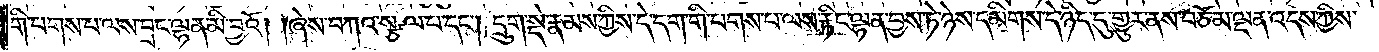གི་པགས་པ་ལས་བྲང་ལྷན་མི་བྱའོ། །ཞེས་བཀའ་སྩལ་པ་དང༌། དྲུག་སྡེ་རྣམས་ཀྱིས་དེ་དག་གི་པགས་པ་ལས་རྟིང་ལྷན་བྱས་ཏེ་ཉེས་དམིགས་དེ་ཉིད་དུ་གྱུར་ནས་བཅོམ་ལྡན་འདས་ཀྱིས་
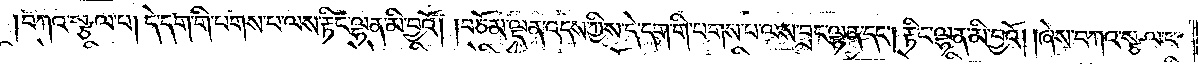བཀའ་སྩལ་པ། དེ་དག་གི་པགས་པ་ལས་རྟིང་ལྷན་མི་བྱའོ། །བཅོམ་ལྡན་འདས་ཀྱིས་དེ་དག་གི་པགས་པ་ལས་བྲང་ལྷན་དང༌། རྟིང་ལྷན་མི་བྱའོ། །ཞེས་བཀའ་སྩལ་པ་
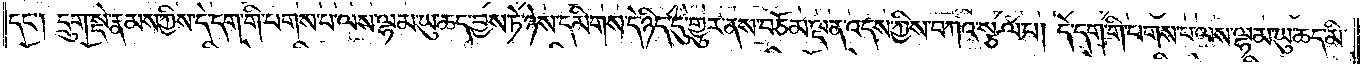དང༌། དྲུག་སྡེ་རྣམས་ཀྱིས་དེ་དག་གི་པགས་པ་ལས་ལྷམ་ཡུ་ཆད་བྱས་ཏེ་ཉེས་དམིགས་དེ་ཉིད་དུ་གྱུར་ནས་བཅོམ་ལྡན་འདས་ཀྱིས་བཀའ་སྩལ་པ། དེ་དག་གི་པགས་པ་ལས་ལྷམ་ཡུ་ཆད་མི་
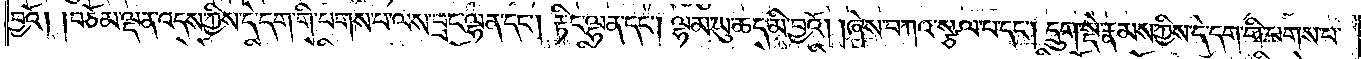བྱའོ། །བཅོམ་ལྡན་འདས་ཀྱིས་དེ་དག་གི་པགས་པ་ལས་བྲང་ལྷན་དང༌། རྟིང་ལྷན་དང༌། ལྷམ་ཡུ་ཆད་མི་བྱའོ། །ཞེས་བཀའ་སྩལ་པ་དང༌། དྲུག་སྡེ་རྣམས་ཀྱིས་དེ་དག་གི་པགས་པ་
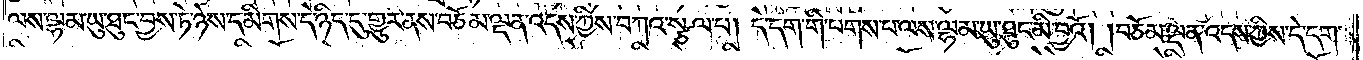ལས་ལྷམ་ཡུ་ཐུང་བྱས་ཏེ་ཉེས་དམིགས་དེ་ཉིད་དུ་གྱུར་ནས་བཅོམ་ལྡན་འདས་ཀྱིས་བཀའ་སྩལ་པ། དེ་དག་གི་པགས་པ་ལས་ལྷམ་ཡུ་ཐུང་མི་བྱའོ། །བཅོམ་ལྡན་འདས་ཀྱིས་དེ་དག་
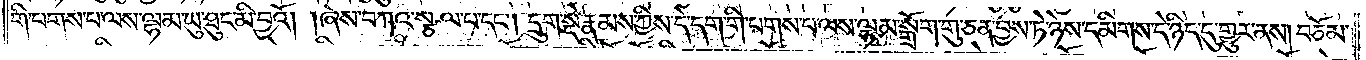གི་པགས་པ་ལས་ལྷམ་ཡུ་ཐུང་མི་བྱའོ། །ཞེས་བཀའ་སྩལ་པ་དང༌། དྲུག་སྡེ་རྣམས་ཀྱིས་དེ་དག་གི་པགས་པ་ལས་ལྷམ་སྒྲོག་གུ་ཅན་བྱས་ཏེ་ཉེས་དམིགས་དེ་ཉིད་དུ་གྱུར་ནས། བཅོམ་
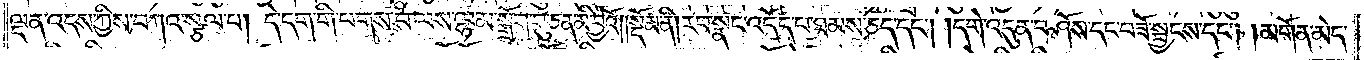ལྡན་འདས་ཀྱིས་བཀའ་སྩལ་པ། དེ་དག་གི་པགས་པ་ལས་ལྷམ་སྒྲོག་གུ་ཅན་མི་བྱའོ།    །སྡོམ་ནི། རབ་སྣང་འདོད་པ་ཐམས་ཅད་དང༌། །དགེ་འདུན་བཤོས་དང་བཟོ་སྦྱངས་དང༌། །མགོན་མེད་
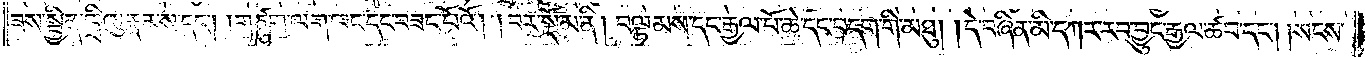ཟས་སྦྱིན་ཁྲིའུ་རྣམས་དང༌། །གཙུག་ལག་ཁང་དང་བཟང་པོའོ། །བར་སྡོམ་ནི། བལྟམས་དང་རྒྱལ་པོ་ཆེ་དང་བདག་གི་མཐུ། །དེ་བཞིན་མི་དཀར་རབ་བྱུང་རྒྱལ་ཚབ་དང༌། །སངས་
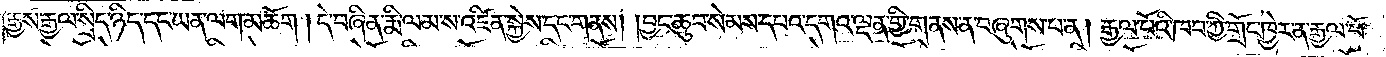རྒྱས་རྒྱལ་སྲིད་ཉིད་དང་ཡན་ལག་མཆོག །དེ་བཞིན་རྨི་ལམ་ས་འཛིན་སྐྱེས་དང་གནས། །བྱང་ཆུབ་སེམས་དཔའ་དགའ་ལྡན་གྱི་གནས་ན་བཞུགས་པ་ན། རྒྱལ་པོའི་ཁབ་ཀྱི་གྲོང་ཁྱེར་ན་རྒྱལ་པོ་
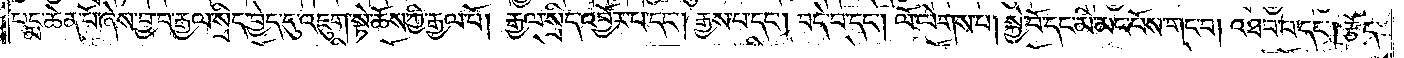པདྨ་ཆེན་པོ་ཞེས་བྱ་བ་རྒྱལ་སྲིད་བྱེད་དུ་འཇུག་སྟེ་ཆོས་ཀྱི་རྒྱལ་པོ། རྒྱལ་སྲིད་འབྱོར་པ་དང༌། རྒྱས་པ་དང༌། བདེ་བ་དང༌། ལོ་ལེགས་པ། སྐྱེ་བོ་དང་མི་མང་པོས་གང་བ། འཐབ་པ་དང༌། རྩོད་
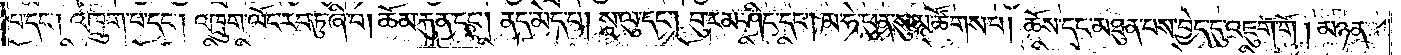པ་དང༌། འཁྲུག་པ་དང༌། འཁྲུག་ལོང་རབ་ཏུ་ཞི་བ། ཆོམ་རྐུན་དང༌། ནད་མེད་པ། སཱ་ལུ་དང༌། བུ་རམ་ཤིང་དང༌། མ་ཧེ་ཕུན་སུམ་ཚོགས་པ། ཆོས་དང་མཐུན་པས་བྱེད་དུ་འཇུག་གོ །མཉན་
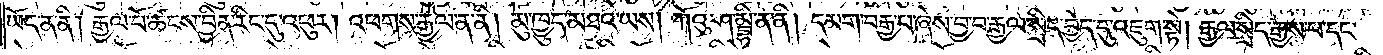ཡོད་ན་ནི། རྒྱལ་པོ་ཚངས་བྱིན་རིང་དུ་འཕུར། འཕགས་རྒྱལ་ན་ནི། མུ་ཁྱུད་མཐའ་ཡས། ཀོའུ་ཤམྦྷི་ན་ནི། དམག་བརྒྱ་པ་ཞེས་བྱ་བ་རྒྱལ་སྲིད་བྱེད་དུ་འཇུག་སྟེ། རྒྱལ་སྲིད་རྒྱས་པ་དང་
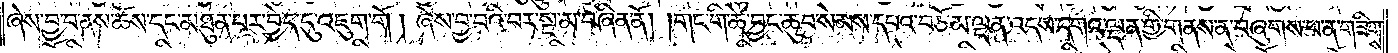ཞེས་བྱ་བ་ནས་ཆོས་དང་མཐུན་པར་བྱེད་དུ་འཇུག་གོ། ཞེས་བྱ་བའི་བར་སྔ་མ་བཞིན་ནོ། །གང་གི་ཚེ་བྱང་ཆུབ་སེམས་དཔའ་བཅོམ་ལྡན་འདས་དགའ་ལྡན་གྱི་གནས་ན་བཞུགས་པ་ན་གཟིགས་
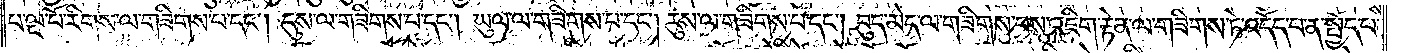པ་ལྔ་པོ་རིགས་ལ་གཟིགས་པ་དང༌། དུས་ལ་གཟིགས་པ་དང༌། ཡུལ་ལ་གཟིགས་པ་དང༌། རུས་ལ་གཟིགས་པ་དང༌། བུད་མེད་ལ་གཟིགས་པས་འཇིག་རྟེན་ལ་གཟིགས་ཏེ་འདོད་པ་ན་སྤྱོད་པ་
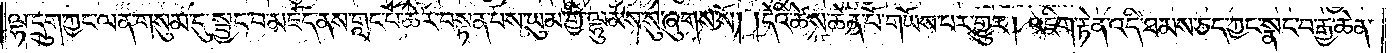ལྷ་དྲུག་ཀྱང་ལན་གསུམ་དུ་སྦྱང་བ་མཛད་ནས་གླང་པོ་ཆེར་བསྟན་པས་ཡུམ་གྱི་ལྷུམས་སུ་ཞུགས་སོ། །དེའི་ཚེ་ས་ཆེན་པོ་གཡོས་པར་གྱུར། འཇིག་རྟེན་འདི་ཐམས་ཅད་ཀྱང་སྣང་བ་རྒྱ་ཆེན་
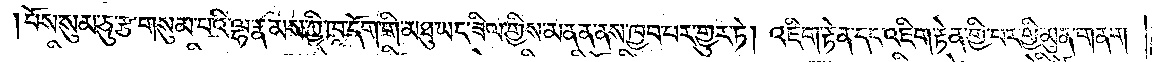།པོས་སུམ་ཅུ་རྩ་གསུམ་པའི་ལྷ་རྣམས་ཀྱི་ཁ་དོག་གི་མཐུ་ཡང་ཟིལ་གྱིས་མནན་ནས་ཁྱབ་པར་གྱུར་ཏེ། འཇིག་རྟེན་དང་འཇིག་རྟེན་གྱི་བར་གྱི་མུན་གནག་
